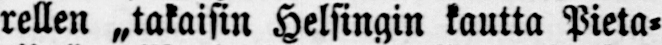rellen „takaisin Helsingin kautta Pieta-
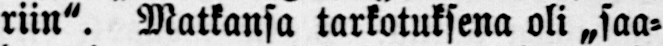riin". Matkansa tarkotuksena oli „saa-
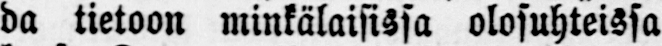da tietoon minkälaisissa olosuhteissa
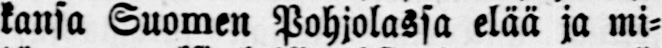kansa Suomen Pohjolassa elää ja mi-
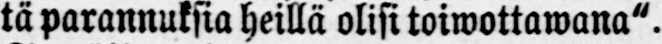tä parannuksia heillä olisi toiwottawana".
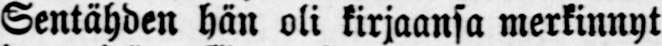Sentähden hän oli kirjaansa merkinnyt
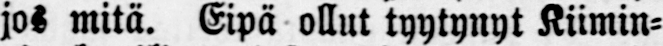jos mitä. Eipä ollut tyytynyt Kiimin-
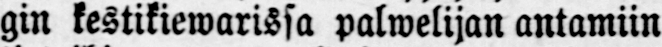gin kestikiewarissa palwelijan antamiin
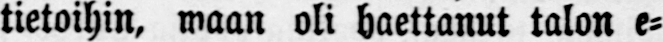tietoihin, waan oli haettanut talon e-
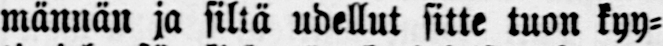männän ja sillä udellut sitte tuon kyy-
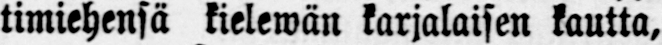timiehensä kielewän karjalaisen kautta,
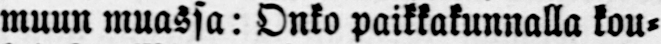muun muassa: Onko paikkakunnalla kou-
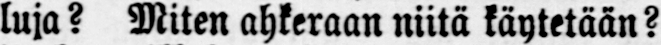luja? Miten ahkeraan niitä käytetään?
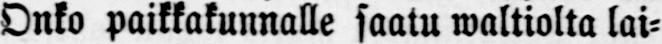Onko paikkakunnalle saatu waltiolta lai-
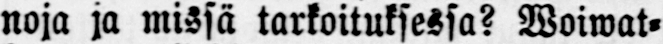noja ja missä tarkoituksessa? Woiwat-
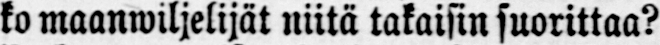ko maanwiljelijät niitä takaisin suorittaa?
